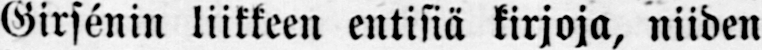Girsénin liikkeen entisiä kirjoja, niiden
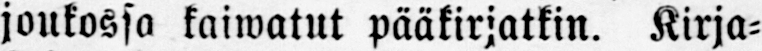joukossa kaiwatut pääkirjatkin. Kirja-
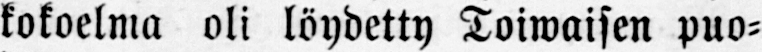kokoelma oli löydetty Toiwaisen puo-
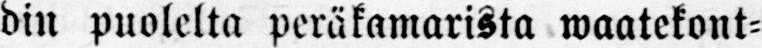din puolelta peräkamarista waatekont-
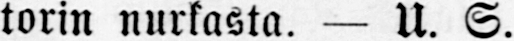torin nurkasta. — U. S.
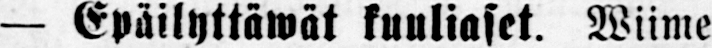— Epäilyttäwät kuuliaset. Wiime
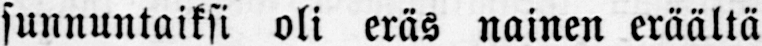sunnuntaiksi oli eräs nainen eräältä
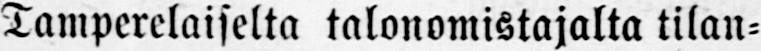Tamperelaiselta talonomistajalta tilan-
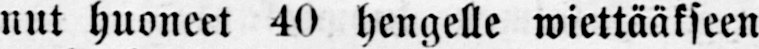nut huoneet 40 hengelle wiettääkseen
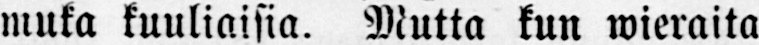muka kuuliaisia. Mutta kun wieraita
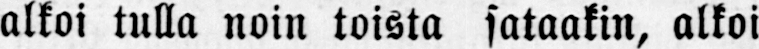alkoi tulla noin toista sataakin, alkoi
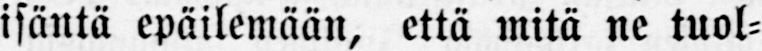isäntä epäilemään, että mitä ne tuol-
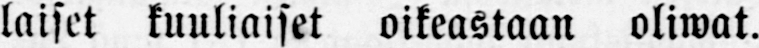laiset kuuliaiset oikeastaan oliwat.
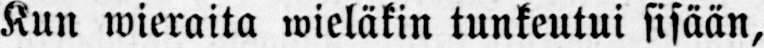Kun wieraita wieläkin tunkeutui sisään,
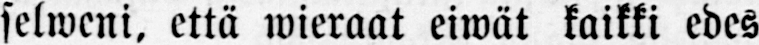selweni, että wieraat eiwät kaikki edes
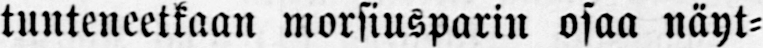tunteneetkaan morsiusparin osaa näyt-
